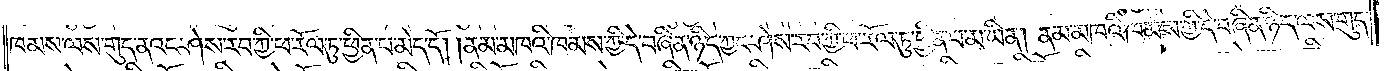ཁམས་ལས་གུད་ནའང་ཤེས་རབ་ཀྱི་ཕ་རོལ་ཏུ་ཕྱིན་པ་མེད་དོ། །ནམ་མཁའི་ཁམས་ཀྱི་དེ་བཞིན་ཉིད་ཀྱང་ཤེས་རབ་ཀྱི་ཕ་རོལ་ཏུ་ཕྱིན་པ་མ་ཡིན། ནམ་མཁའི་ཁམས་ཀྱི་དེ་བཞིན་ཉིད་ལས་གུད་
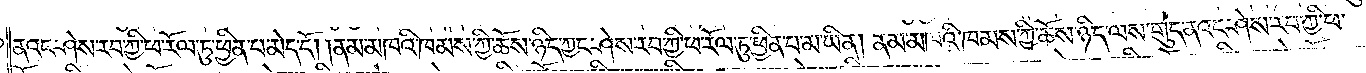ནའང་ཤེས་རབ་ཀྱི་ཕ་རོལ་ཏུ་ཕྱིན་པ་མེད་དོ། །ནམ་མཁའི་ཁམས་ཀྱི་ཆོས་ཉིད་ཀྱང་ཤེས་རབ་ཀྱི་ཕ་རོལ་ཏུ་ཕྱིན་པ་མ་ཡིན། ནམ་མཁའི་ཁམས་ཀྱི་ཆོས་ཉིད་ལས་གུད་ནའང་ཤེས་རབ་ཀྱི་ཕ་
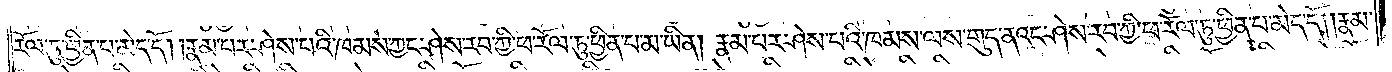རོལ་ཏུ་ཕྱིན་པ་མེད་དོ། །རྣམ་པར་ཤེས་པའི་ཁམས་ཀྱང་ཤེས་རབ་ཀྱི་ཕ་རོལ་ཏུ་ཕྱིན་པ་མ་ཡིན། རྣམ་པར་ཤེས་པའི་ཁམས་ལས་གུད་ནའང་ཤེས་རབ་ཀྱི་ཕ་རོལ་ཏུ་ཕྱིན་པ་མེད་དོ། །རྣམ་
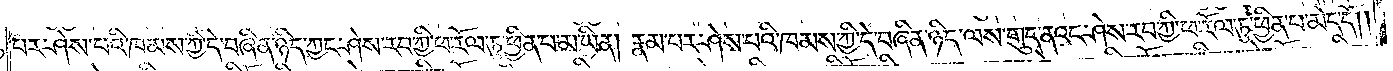པར་ཤེས་པའི་ཁམས་ཀྱི་དེ་བཞིན་ཉིད་ཀྱང་ཤེས་རབ་ཀྱི་ཕ་རོལ་ཏུ་ཕྱིན་པ་མ་ཡིན། རྣམ་པར་ཤེས་པའི་ཁམས་ཀྱི་དེ་བཞིན་ཉིད་ལས་གུད་ནའང་ཤེས་རབ་ཀྱི་ཕ་རོལ་ཏུ་ཕྱིན་པ་མེད་དོ༎
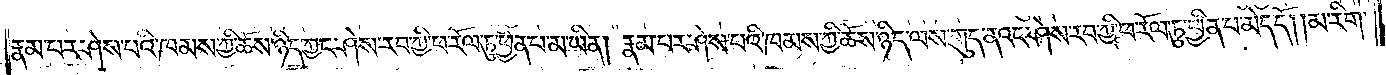རྣམ་པར་ཤེས་པའི་ཁམས་ཀྱི་ཆོས་ཉིད་ཀྱང་ཤེས་རབ་ཀྱི་ཕ་རོལ་ཏུ་ཕྱིན་པ་མ་ཡིན། རྣམ་པར་ཤེས་པའི་ཁམས་ཀྱི་ཆོས་ཉིད་ལས་གུད་ནའང་ཤེས་རབ་ཀྱི་ཕ་རོལ་ཏུ་ཕྱིན་པ་མེད་དོ། །མ་རིག་
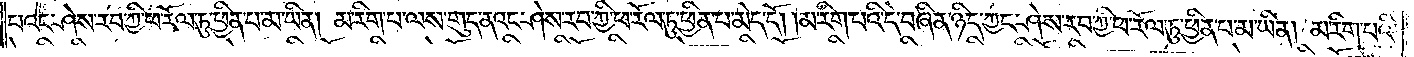པའང་ཤེས་རབ་ཀྱི་ཕ་རོལ་ཏུ་ཕྱིན་པ་མ་ཡིན། མ་རིག་པ་ལས་གུད་ནའང་ཤེས་རབ་ཀྱི་ཕ་རོལ་ཏུ་ཕྱིན་པ་མེད་དོ། །མ་རིག་པའི་དེ་བཞིན་ཉིད་ཀྱང་ཤེས་རབ་ཀྱི་ཕ་རོལ་ཏུ་ཕྱིན་པ་མ་ཡིན། མ་རིག་པའི་
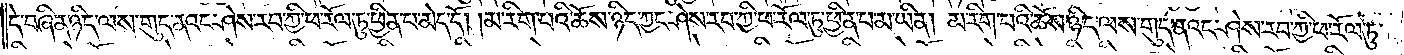དེ་བཞིན་ཉིད་ལས་གུད་ནའང་ཤེས་རབ་ཀྱི་ཕ་རོལ་ཏུ་ཕྱིན་པ་མེད་དོ། །མ་རིག་པའི་ཆོས་ཉིད་ཀྱང་ཤེས་རབ་ཀྱི་ཕ་རོལ་ཏུ་ཕྱིན་པ་མ་ཡིན། མ་རིག་པའི་ཆོས་ཉིད་ལས་གུད་ནའང་ཤེས་རབ་ཀྱི་ཕ་རོལ་ཏུ་
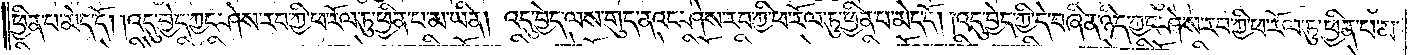ཕྱིན་པ་མེད་དོ། །འདུ་བྱེད་ཀྱང་ཤེས་རབ་ཀྱི་ཕ་རོལ་ཏུ་ཕྱིན་པ་མ་ཡིན། འདུ་བྱེད་ལས་གུད་ནའང་ཤེས་རབ་ཀྱི་ཕ་རོལ་ཏུ་ཕྱིན་པ་མེད་དོ། །འདུ་བྱེད་ཀྱི་དེ་བཞིན་ཉིད་ཀྱང་ཤེས་རབ་ཀྱི་ཕ་རོལ་ཏུ་ཕྱིན་པ་མ་
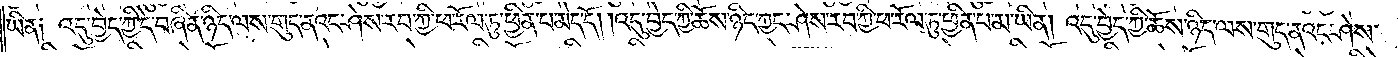ཡིན། འདུ་བྱེད་ཀྱི་དེ་བཞིན་ཉིད་ལས་གུད་ནའང་ཤེས་རབ་ཀྱི་ཕ་རོལ་ཏུ་ཕྱིན་པ་མེད་དོ། །འདུ་བྱེད་ཀྱི་ཆོས་ཉིད་ཀྱང་ཤེས་རབ་ཀྱི་ཕ་རོལ་ཏུ་ཕྱིན་པ་མ་ཡིན། འདུ་བྱེད་ཀྱི་ཆོས་ཉིད་ལས་གུད་ནའང་ཤེས་
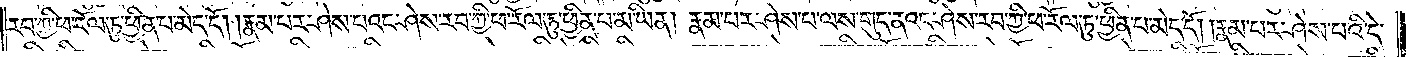རབ་ཀྱི་ཕ་རོལ་ཏུ་ཕྱིན་པ་མེད་དོ། །རྣམ་པར་ཤེས་པའང་ཤེས་རབ་ཀྱི་ཕ་རོལ་ཏུ་ཕྱིན་པ་མ་ཡིན། རྣམ་པར་ཤེས་པ་ལས་གུད་ནའང་ཤེས་རབ་ཀྱི་ཕ་རོལ་ཏུ་ཕྱིན་པ་མེད་དོ། །རྣམ་པར་ཤེས་པའི་དེ་
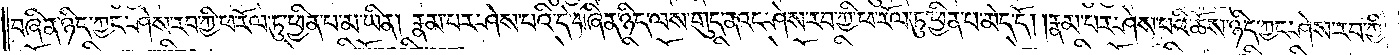བཞིན་ཉིད་ཀྱང་ཤེས་རབ་ཀྱི་ཕ་རོལ་ཏུ་ཕྱིན་པ་མ་ཡིན། རྣམ་པར་ཤེས་པའི་དེ་བཞིན་ཉིད་ལས་གུད་ནའང་ཤེས་རབ་ཀྱི་ཕ་རོལ་ཏུ་ཕྱིན་པ་མེད་དོ། །རྣམ་པར་ཤེས་པའི་ཆོས་ཉིད་ཀྱང་ཤེས་རབ་ཀྱི་
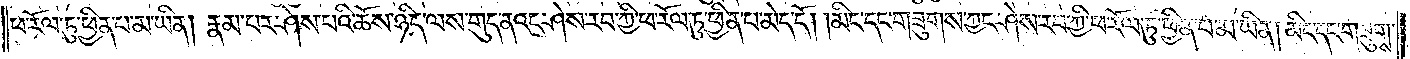ཕ་རོལ་ཏུ་ཕྱིན་པ་མ་ཡིན། རྣམ་པར་ཤེས་པའི་ཆོས་ཉིད་ལས་གུད་ནའང་ཤེས་རབ་ཀྱི་ཕ་རོལ་ཏུ་ཕྱིན་པ་མེད་དོ། །མིང་དང་གཟུགས་ཀྱང་ཤེས་རབ་ཀྱི་ཕ་རོལ་ཏུ་ཕྱིན་པ་མ་ཡིན། མིང་དང་གཟུགས་
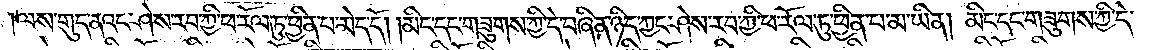ལས་གུད་ནའང་ཤེས་རབ་ཀྱི་ཕ་རོལ་ཏུ་ཕྱིན་པ་མེད་དོ། །མིང་དང་གཟུགས་ཀྱི་དེ་བཞིན་ཉིད་ཀྱང་ཤེས་རབ་ཀྱི་ཕ་རོལ་ཏུ་ཕྱིན་པ་མ་ཡིན། མིང་དང་གཟུགས་ཀྱི་དེ་
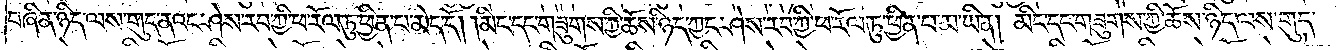བཞིན་ཉིད་ལས་གུད་ནའང་ཤེས་རབ་ཀྱི་ཕ་རོལ་ཏུ་ཕྱིན་པ་མེད་དོ། །མིང་དང་གཟུགས་ཀྱི་ཆོས་ཉིད་ཀྱང་ཤེས་རབ་ཀྱི་ཕ་རོལ་ཏུ་ཕྱིན་པ་མ་ཡིན། མིང་དང་གཟུགས་ཀྱི་ཆོས་ཉིད་ལས་གུད་
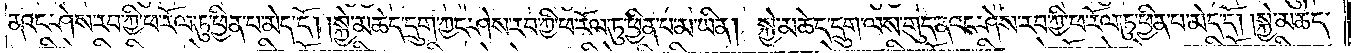ནའང་ཤེས་རབ་ཀྱི་ཕ་རོལ་ཏུ་ཕྱིན་པ་མེད་དོ། །སྐྱེ་མཆེད་དྲུག་ཀྱང་ཤེས་རབ་ཀྱི་ཕ་རོལ་ཏུ་ཕྱིན་པ་མ་ཡིན། སྐྱེ་མཆེད་དྲུག་ལས་གུད་ནའང་ཤེས་རབ་ཀྱི་ཕ་རོལ་ཏུ་ཕྱིན་པ་མེད་དོ། །སྐྱེ་མཆེད་
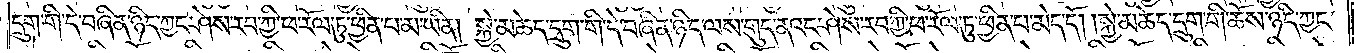དྲུག་གི་དེ་བཞིན་ཉིད་ཀྱང་ཤེས་རབ་ཀྱི་ཕ་རོལ་ཏུ་ཕྱིན་པ་མ་ཡིན། སྐྱེ་མཆེད་དྲུག་གི་དེ་བཞིན་ཉིད་ལས་གུད་ནའང་ཤེས་རབ་ཀྱི་ཕ་རོལ་ཏུ་ཕྱིན་པ་མེད་དོ། །སྐྱེ་མཆེད་དྲུག་གི་ཆོས་ཉིད་ཀྱང་
